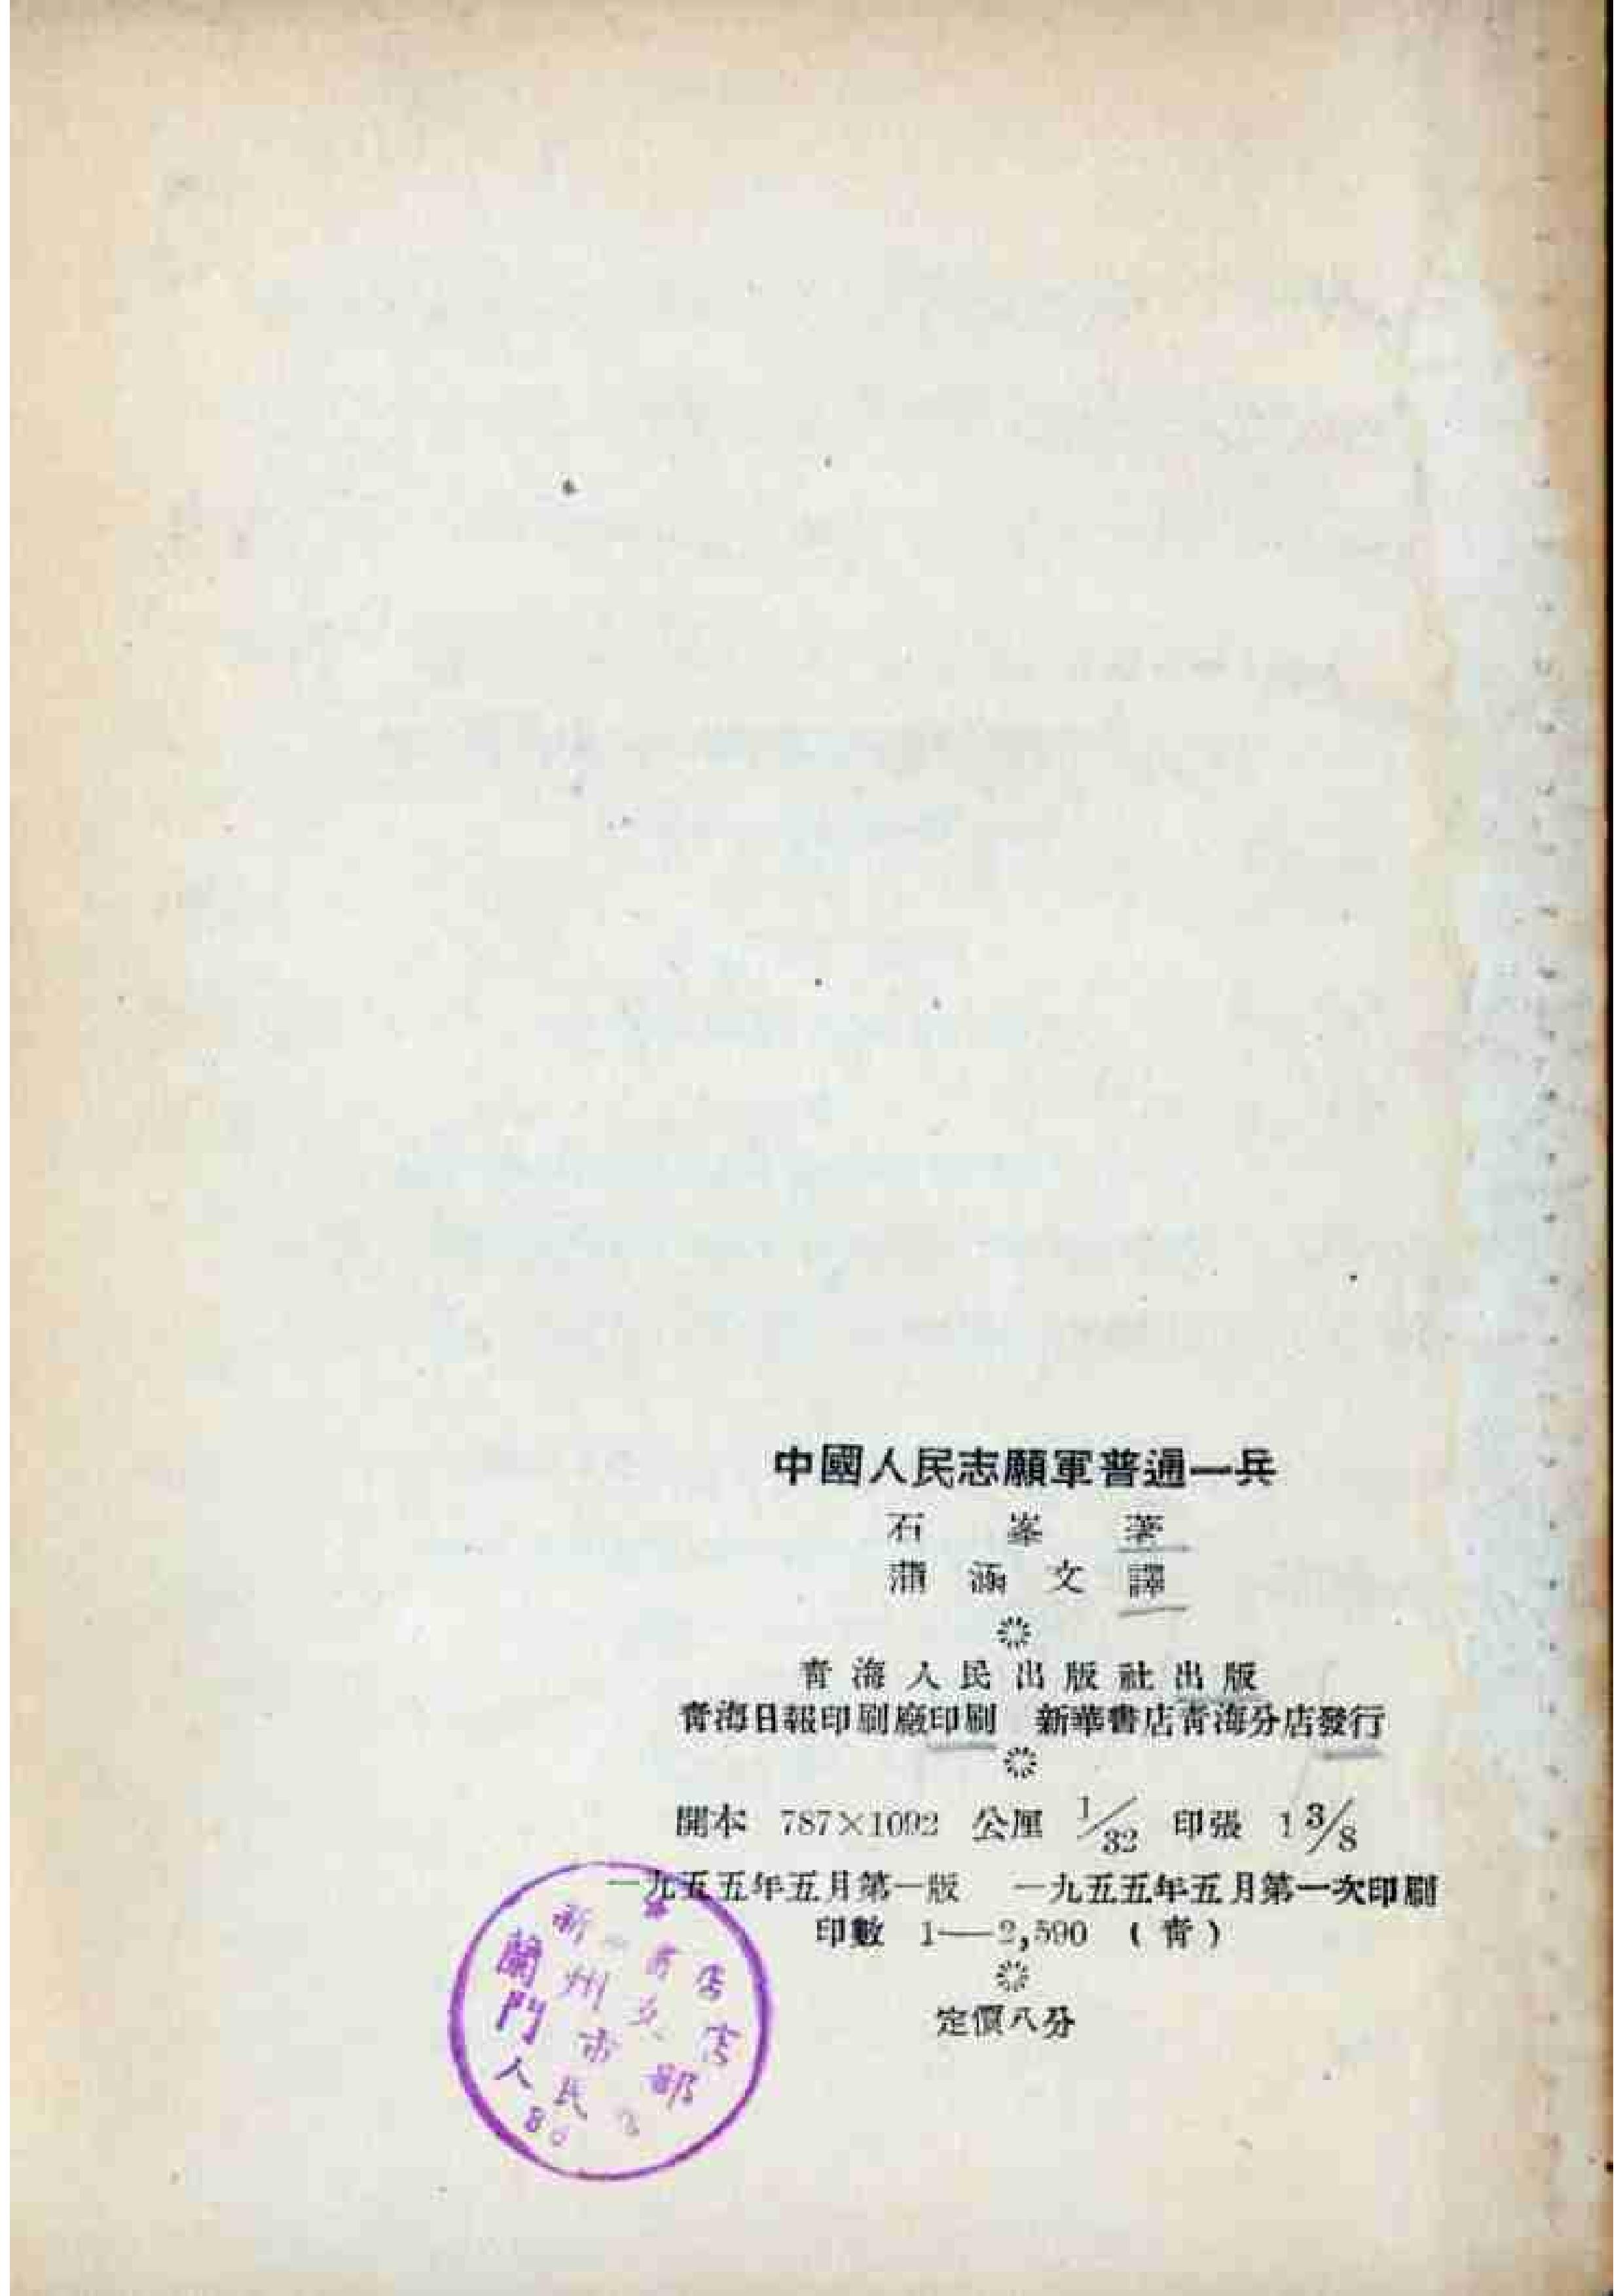中國人民志願軍普通一兵
石 峯 著
蒲 涵 文 譯
靑 海 人 民 出 版 社 出 版
靑海日報印刷廠印刷 新華書店靑海分店發行
開本 787×1092 公厘 1/32 印張 13/8
一九五五年五月第一版 一九五五年五月第一次印刷
印數 1——2,590 （靑）
定價八分
